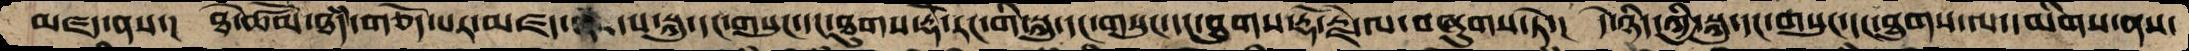མཛད་ནས་། ཐེ་ཚོམ་ཐཾད་གཅོད་པར་མཛད་ས་སྐུ་དང་གསུང་དང་ཐུགས་རྡོེ་རང་གི་སྐུ་དང་གསུང་དང་ཐུགས་རྡོ་རྗེ་ལ་བཞུགས་ཏེ་།  དེ་ཉིད་ཀྱི་སྐུ་དང་གསུང་དང་ཐུགས་ལ་དམིགས་ནས་
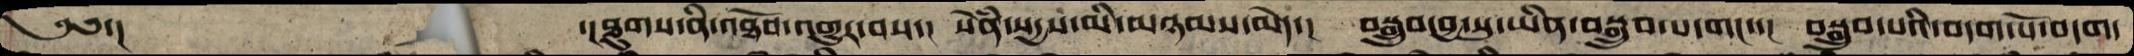༄༅་།       ་།ཐུགས་ནི་འཐོབ་འགྱུར་བས་།  སེཾན་སདྱས་མི་མཉམས་མེད་།  བསྒྲུབ་བྱ་སུ་ཡིན་བསྒྲུབ་པ་གང་་།  བསྒྲུབ་པའི་བདག་པོ་བདག་
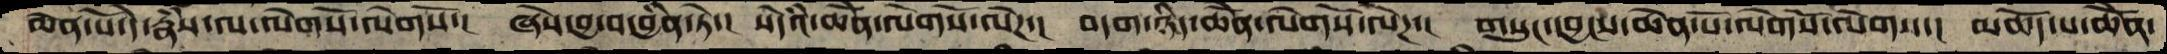ཆེན་པོ་དེ་རྣཾས་ལ་ལེགསོ་ལེགསོ་།  ཞེས་བྱ་བ་བྱིན་ཏེ་།  སེདཾའ་ཆེནོ་ལེགསོ་ལེཌ་།  བདག་ཉིད་ཆེོན་ལེགསོ་ལེཌ་།  གསུང་དབྱངས་ཆེན་པོ་ལེགསོ་ལེགས་།  མཆོད་པ་ཆེནོ་
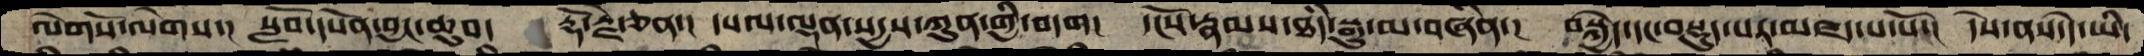ལེགསོ་ལེགས་།  སློབ་དཔོན་བྱང་ཆུབ་   རྡོ་རྗེ་ཅན་།   དཔལ་ལྡན་སདྱས་ཀུན་གྱི་བདག།  དངོས་རྣམས་ཐདཾ་སྒྱུ་མ་བཞིན་།  བསྐྱེད་དང་བསྡུད་པར་མཛད་པ་པོ་།  དེས་ནས་དེ་ཡི་
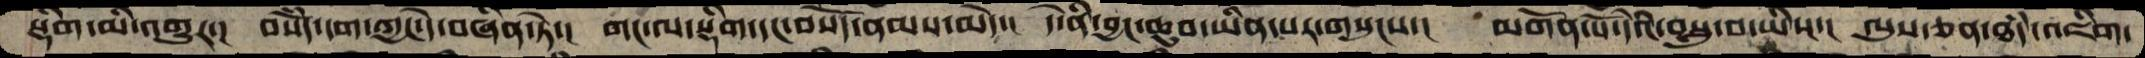སྡིག་མི་འགྱུར་།  བསོཾད་དག་ཀྱང་དེ་བཞིན་ཏེ་།  གང་ལ་སྡིག་དང་བསོད་ནམས་མེད་།  དེ་ནི་བྱང་ཆུབ་ཡིན་པར་གསུངས་།  མགོན་པོ་དེའི་བསླུ་བ་ཡིས་།  ལུས་ཅན་ཐདཾ་འཇིག་
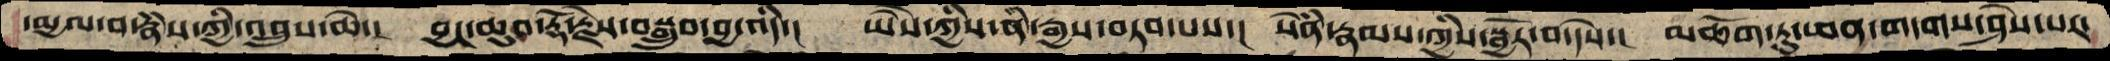དམྱལ་བ་རྣཾས་ཀྱི་འབྲུས་ཆེ་།  བྱང་ཆུབ་རྡོ་རྗེས་བསྒྲུབ་བྱ་འདི་།  ཡཻས་ཀྱིས་ནི་རྒྱས་བཏབ་པས་།  སེཾན་རྣམས་ཀྱིས་སྦྱོར་བ་དེས་།  མཆོག་ཏུ་ཕན་གདགས་ཤེས་པར་
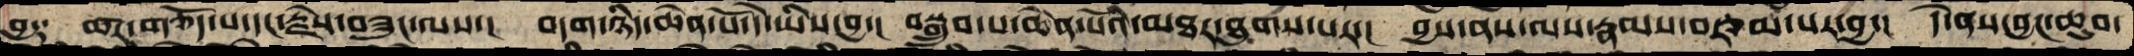བྱ༑   ཚར་གཅོད་པ་དང་རྗེས་བཟུང་ལས་།  བདག་ཉིད་ཆེན་པོ་དེ་ཡིས་བྱ་།  བསྒྲུབ་པ་ཆེན་པོའི་མཐར་ཐུགས་པར་།  བྱས་ནས་ལས་རྣམས་བརྩམ་པར་བྱ་།  དེ་ནས་བྱང་ཆུབ་
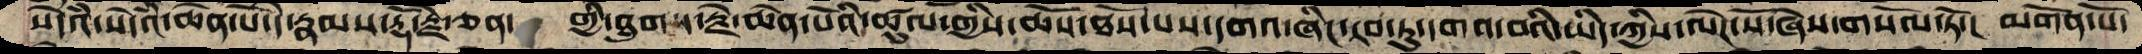སེདཾའ་སེདཾའ་ཆེན་པོ་དེ་རྣམས་རྡོ་རྗེ་ཅན་   གྱི་ཐུགས་རྗེ་ཆེན་པོ་འི་ཚུལ་གྱིས་ཆོས་ཐོས་པས་དགའ་ཞིང་རབ་ཏུ་དགའ་བའི་ཡིད་ཀྱིས་ལེཌ་སོ་ཞེས་གསོལ་ཏོ་།  མགོན་པོ་
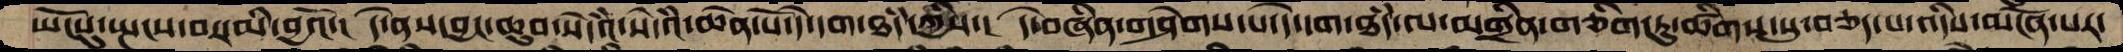ཡོངསུ་སྤངས་བར་མི་བྱའོ་།  དེ་ནས་བྱང་ཆུབ་སེདཾའ་སེདཾའ་ཆེན་པོ་དེ་དག་ཐདཾ་ཀྱིས་།  དེ་བཞིན་གཤེགས་པ་དེ་དག་ཐདཾ་ལ་མགྲིན་གཅིག་ཏུ་ཚིགས་སུ་བཅད་པ་འདིས་མངོན་པར་
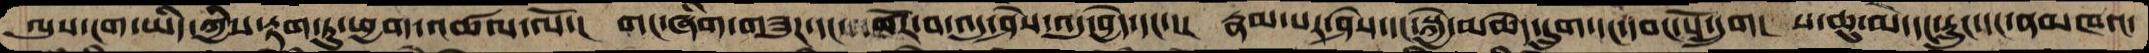ལུས་ངག་ཡིད་ཀྱིས་རྟག་ཏུ་ཕྱག་འཚལ་ལོ་།  གང་ཞིག་གཟུཌ་དང་ཚོར་བ་འདུ་ཤེས་འདུ་བྱེད་དང་་།  རྣམ་པར་ཤེས་དང་སྐྱེ་མཆེད་དྲུག་དང་དབང་པོ་དྲུག།  ས་ཆུ་མེ་དང་རླུང་དང་ནམཁའ་
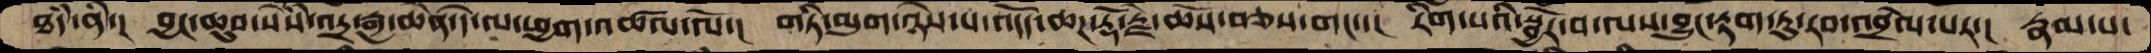ཐཾད་ནི་།  བྱང་ཆུབ་སེཾས་འདྲ་རྒྱ་ཆེན་དེ་ལ་ཕྱག་འཚལ་ལོ་།  གཏི་མུག་ཉེས་པ་འདོད་ཆཌ་རྡོ་རྗེ་ཆོས་བཅས་གང་་།  རིག་པའི་སྦྱོར་བ་ལས་བྱུང་རྟག་ཏུ་རབ་འབྲེལ་པར་།  རྣམ་པ་
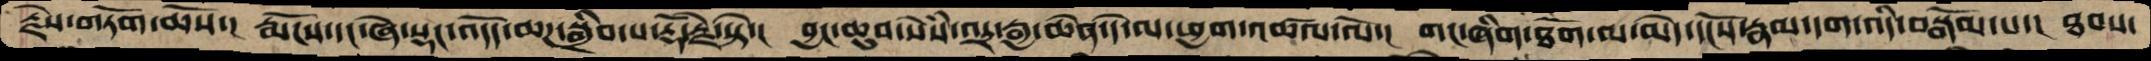རྗེས་གཏོག་ཆོས་།  རྨོངས་དང་ཞེ་སྡང་འདོད་ཆཌ་སྒྲིབ་པ་རྡོ་རྗེ་སྟེ་།  བྱང་ཆུབ་སེཾས་འདྲ་རྒྱ་ཆེན་དེ་ལ་ཕྱག་འཚལ་ལོ་།   གང་ཞིག་ཐོག་མ་མེད་དངོས་རྣམ་དག་འདི་བསྒོམ་པ་།  ཐབས་
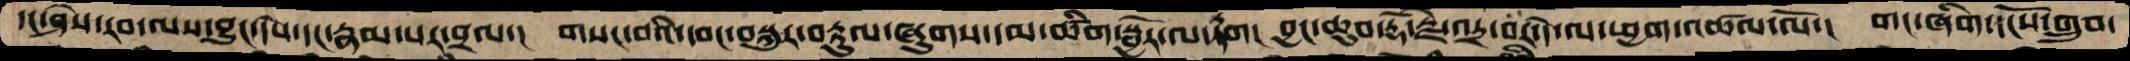དང་ཤེས་རབ་ལས་བྱུང་དེས་དང་རྣམ་པར་བྲལ་།  གསང་བའི་དབང་བསྐུར་བརྟུལ་ཞུགས་དམ་ཚིག་སྦྱོར་ལ་རེག།  བྱང་ཆུབ་རྡོ་རྗེ་འདྲ་བར་དེ་ལ་ཕྱག་འཚལ་ལོ་།  གང་ཞིག་དངོས་གྲུབ་
